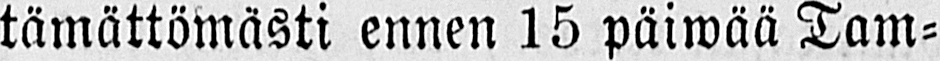tämättömästi ennen 15 päiwää Tam-
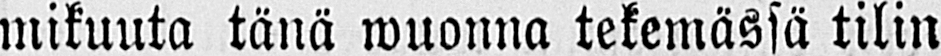mikuuta tänä wuonna tekemässä tilin
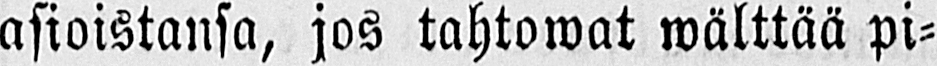asioistansa, jos tahtowat wälttää pi-
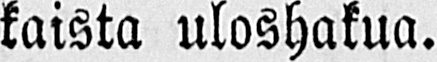kaista uloshakua.
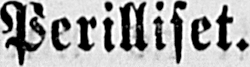Perilliset.
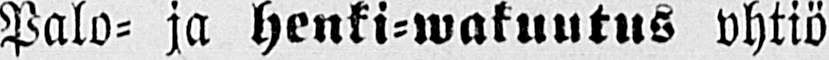Palo- ja henki-wakuutus yhtiö
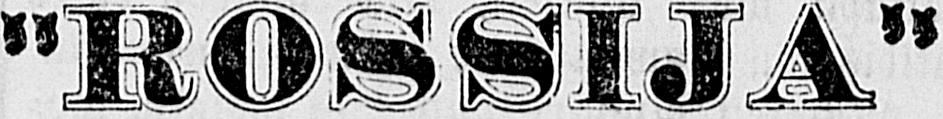"ROSSIJA"
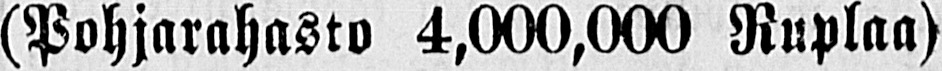(Pohjarahasto 4,000,000 Ruplaa)
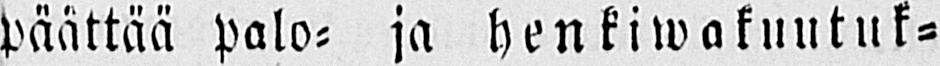päättää palo- ja henkiwakuutuk-
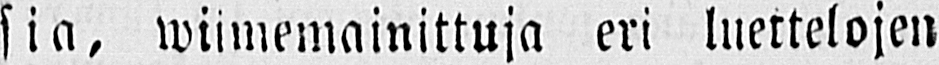sia, wiimeinainittuja eri luettelojen
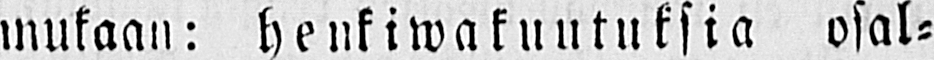mukaan: henkiwakuutuksia osal-
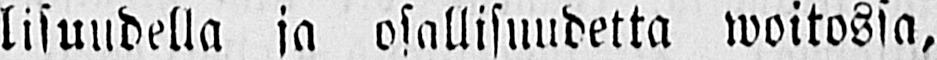lisuudella ja osallisuudetta woitosta,
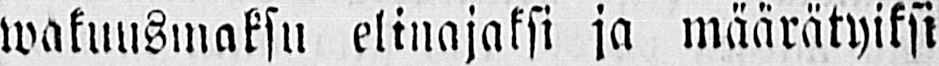wakuusmaksu elinajaksi ja määrätyiksi
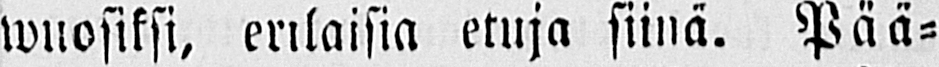wuosiksi, erilaisia etuja siinä. Pää-
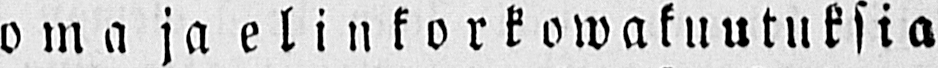oma ja elinkorkowakuutuksia
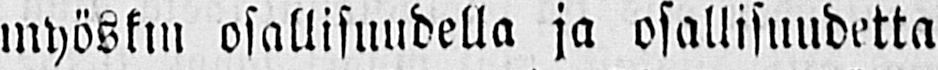myöskin osallisuudella ja osallisuudetta
